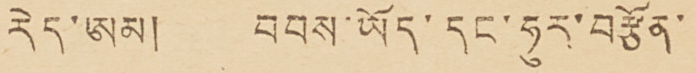རེད་ཨམ། བབས་ཡོད་དང་ཧུར་བརྩོན་
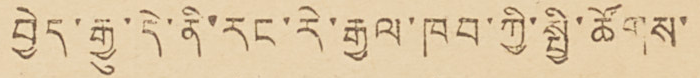བྱེད་རྒྱུ་དེ་ནི་རང་རེ་རྒྱལ་ཁབ་ཀྱི་སྤྱི་ཚོགས་
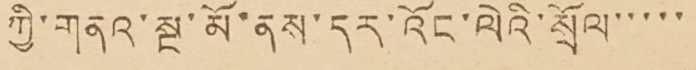ཀྱི་གནའ་སྔ་མོ་ནས་དར་འོང་ལེའི་སྲོལ་་་་་
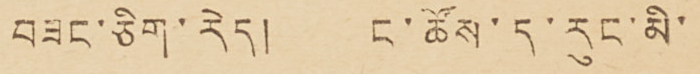བཟང་ཅིག་རེད། ང་ཚོས་ད་རུང་མི་
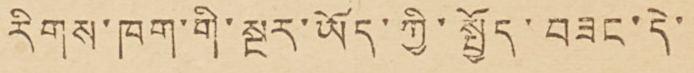རིགས་ཁག་གི་སྔར་ཡོད་ཀྱི་སྤྱོད་བཟང་དེ་
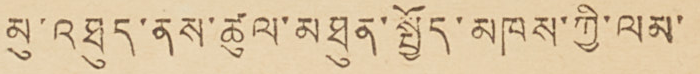མུ་འཐུད་ནས་ཚུལ་མཐུན་སྤྱོད་མཁས་ཀྱི་ལམ་
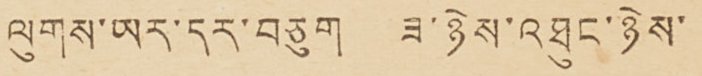ལུགས་ཡར་དར་བཅུག ཟ་ཉེས་འཐུང་ཉེས་
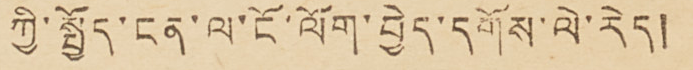ཀྱི་སྤྱོད་ངན་ལ་ངོ་ལོག་བྱེད་དགོས་ལེ་རེད།
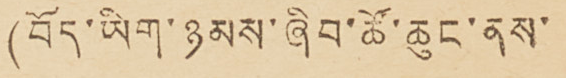(བོད་ཡིག་ཉམས་ཧཟིབ་ཚོ་ཆུང་ནས་
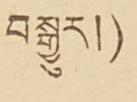བསྒྱུར།)
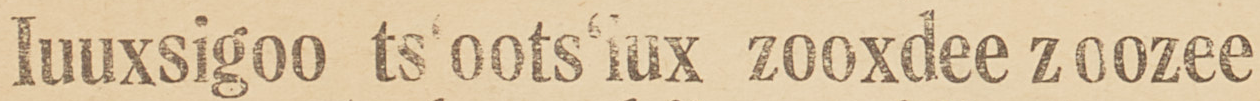Iuuxsigoo ts'oots'iux zooxdee zoozee
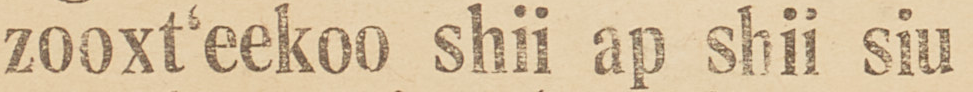zooxt'eekoo shii ap shii siu
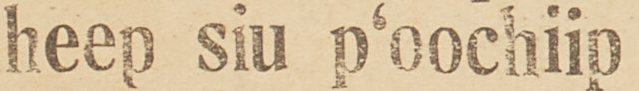heep siu p'oochiip
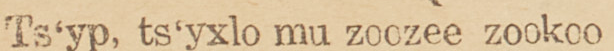Ts'yp, ts'yxlo mu zoozee zookoo
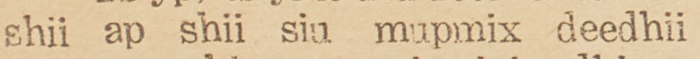shii ap shii siu mupmix deedhii
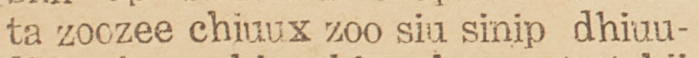ta zoozee chiuux zoo siu sinip dhiuu-
